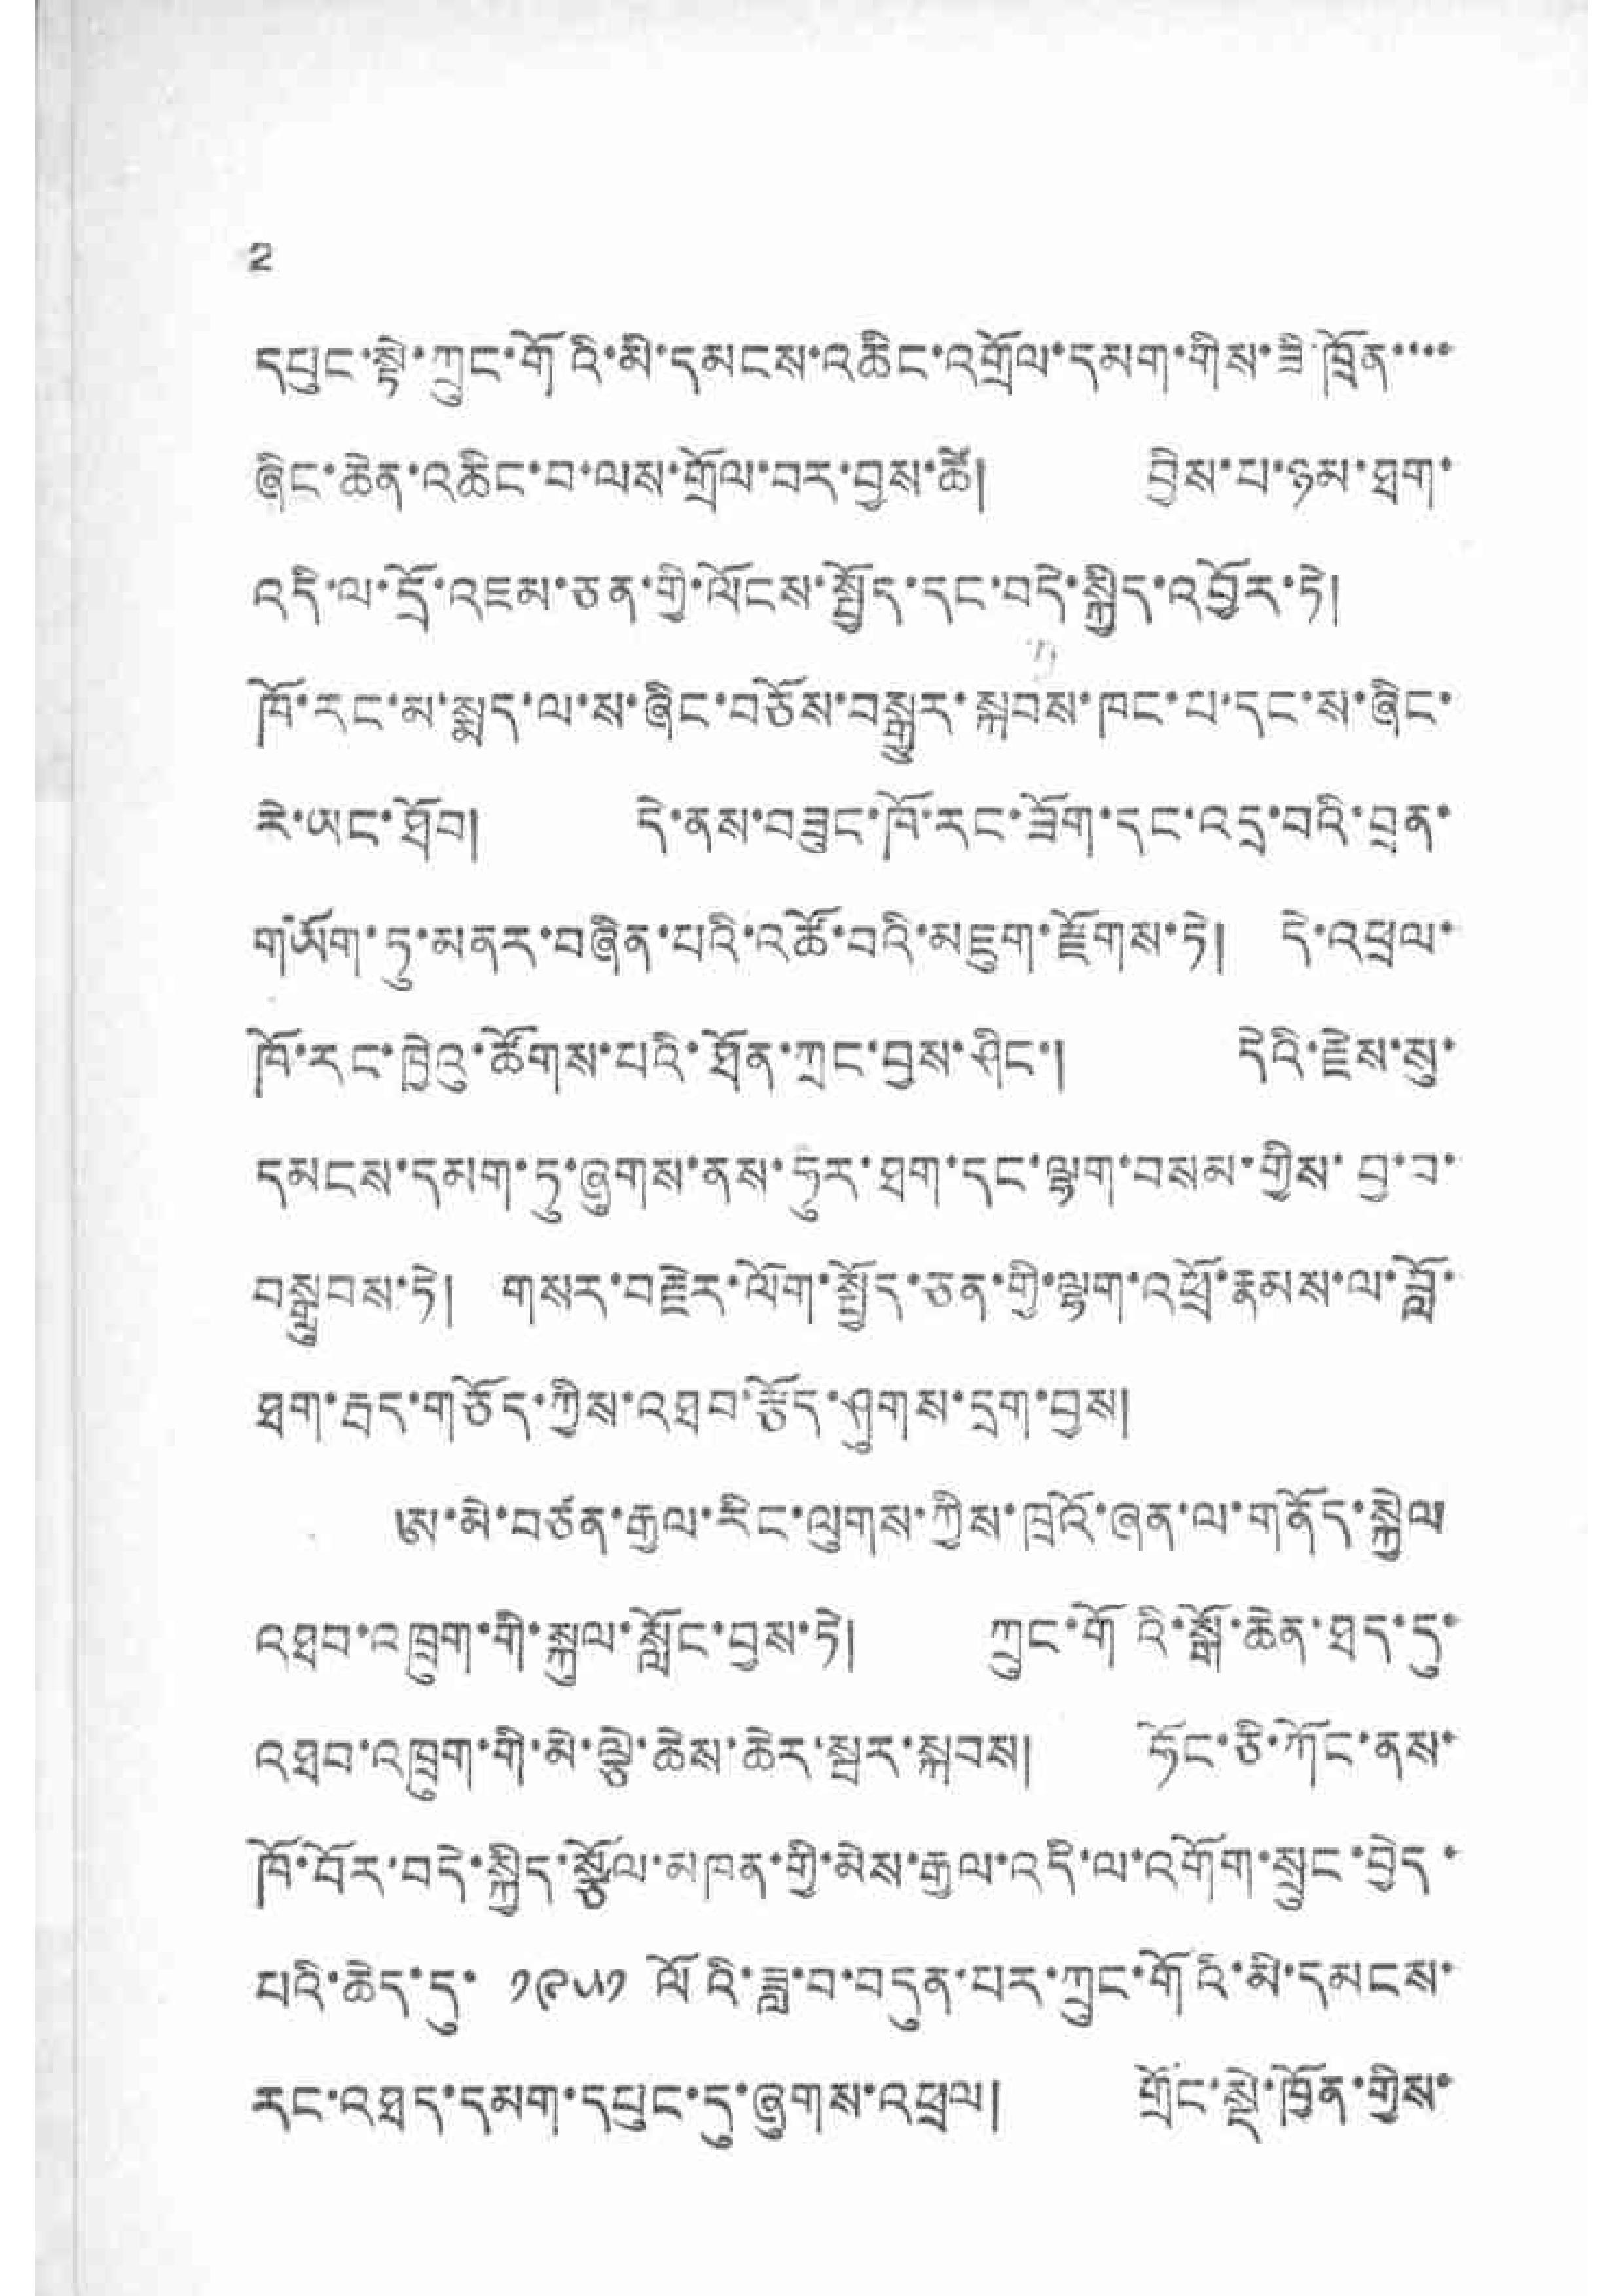2
དཔུང་སྟེ་ཀྲུང་གོའི་མི་དམངས་འཆིང་འགྲོལ་དམག་གིས་ཟི་ཁྲོན་་་་་
ཞིང་ཆེན་འཆིང་བ་ལས་གྲོལ་བར་བྱས་ཚེ། བྱིས་པ་ཉམ་ཐག་
འདི་ལ་དྲོ་འཇམ་ཅན་གྱི་ལོངས་སྤྱོད་དང་བདེ་སྐྱིད་འབྱོར་ཏེ།
ཁོ་རང་མ་སྨད་ལ་ས་ཞིང་བཅོས་བསྒྱུར་སྐབས་ཁང་པ་དང་ས་ཞིང་
རེ་ཡང་ཐོབ། དེ་ནས་བཟུང་ཁོ་རང་ཟོག་དང་འདྲ་བའི་བྲན་
གཡོག་ཏུ་མནར་བཞིན་པའི་འཚོ་བའི་མཇུག་རྫོགས་ཏེ། དེ་འཕྲུལ་
ཁོ་རང་ཁྱེའུ་ཚོགས་པའི་ཐོན་ཀྲང་བྱས་ཤིང་། དེའི་རྗེས་སུ་
དམངས་དམག་ཏུ་ཞུགས་ནས་ཧུར་ཐག་དང་ལྷག་བསམ་གྱིས་བྱ་བ་
བསྒྲུབས་ཏེ། གསར་བརྗེར་ལོག་སྤྱོད་ཅན་གྱི་ལྷག་འཕྲོ་རྣམས་ལ་བློ་
ཐག་རྦད་གཅོད་ཀྱིས་འཐབ་རྩོད་ཤུགས་དྲག་བྱས།
ཨ་མེ་བཙན་རྒྱལ་རིང་ལུགས་ཀྱིས་ཁྲའོ་ཞན་ལ་གནོད་སྐྱེལ
འཐབ་འཁྲུག་གི་སྐུལ་སློང་བྱས་ཏེ། ཀྲུང་གོའི་སྒོ་ཆེན་ཐད་དུ་
འཐབ་འཁྲུག་གི་མེ་ལྕེ་ཆེས་ཆེར་སྦར་སྐབས། ཧོང་ཅི་ཀོང་ནས་
ཁོ་བོར་བདེ་སྐྱིད་སྩོལ་མཁན་གྱི་མེས་རྒྱལ་འདི་ལ་འགོག་སྲུང་བྱེད་
པའི་ཆེད་དུ་ ༡༩༥༡ ལོའི་ཟླ་བ་བདུན་པར་ཀྲུང་གོའི་མི་དམངས་
རང་འཐད་དམག་དཔུང་དུ་ཞུགས་འཕྲལ། གྲོང་སྡེ་ཁྱོན་གྱིས་
